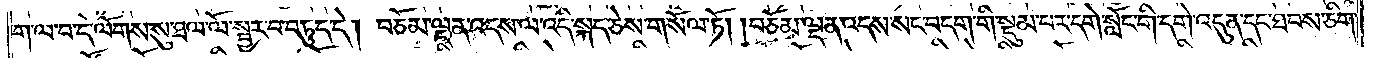ག་ལ་བ་དེ་ལོགས་སུ་ཐལ་ལོ་སྦྱར་བ་བཏུད་དེ། བཅོམ་ལྡན་འདས་ལ་འདི་སྐད་ཅེས་གསོལ་ཏོ། །བཅོམ་ལྡན་འདས་སང་བདག་གི་སྡུམ་པར་དགེ་སློང་གི་དགེ་འདུན་དང་ཐབས་ཅིག་
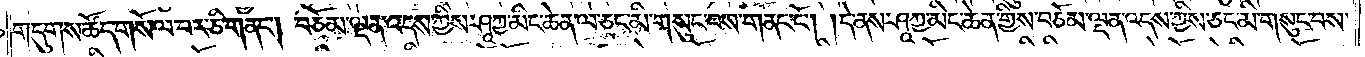གདུགས་ཚོད་གསོལ་བར་ཅི་གནང༌། བཅོམ་ལྡན་འདས་ཀྱིས་ཤཱཀྱ་མིང་ཆེན་ལ་ཅང་མི་གསུང་བས་གནང་ངོ༌། །དེ་ནས་ཤཱཀྱ་མིང་ཆེན་གྱིས་བཅོམ་ལྡན་འདས་ཀྱིས་ཅང་མི་གསུང་བས་
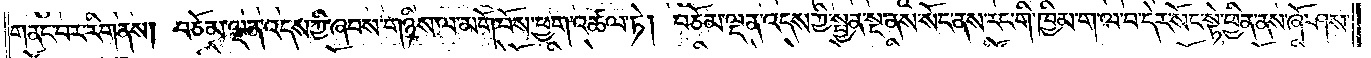གནང་བར་རིག་ནས། བཅོམ་ལྡན་འདས་ཀྱི་ཞབས་གཉིས་ལ་མགོ་བོས་ཕྱག་འཚལ་ཏེ། བཅོམ་ལྡན་འདས་ཀྱི་སྤྱན་སྔ་ནས་སོང་ནས་རང་གི་ཁྱིམ་ག་ལ་བ་དེར་སོང་སྟེ་ཕྱིན་ནས་ཞོ་ཤས་
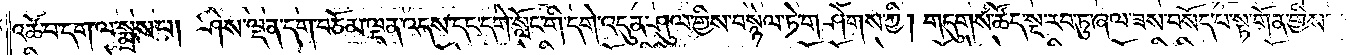འཚོ་བ་དག་ལ་སྨྲས་པ། ཤེས་ལྡན་དག་བཅོམ་ལྡན་འདས་དང་དགེ་སློང་གི་དགེ་འདུན་ཤུལ་གྱིས་བསྙེལ་ཏེ་གཤེགས་ཀྱི། གདུགས་ཚོད་སྔ་རབ་ཏུ་ཞལ་ཟས་བསོད་པ་སྟ་གོན་གྱིས་
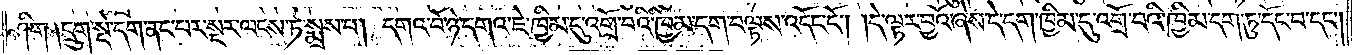ཤིག །དྲུག་སྡེ་དག་ནང་པར་སྔར་ལངས་ཏེ་སྨྲས་པ། དགའ་བོ་ཉེ་དགའ་ཇེ་ཁྱིམ་དུ་འགྲོ་བའི་ཁྱིམ་དག་བལྟས་འདོང་ངོ༌། །དེ་ལྟར་བྱའོ་ཞེས་དེ་དག་ཁྱིམ་དུ་འགྲོ་བའི་ཁྱིམ་དག་ཏུ་དོང་བ་དང༌།
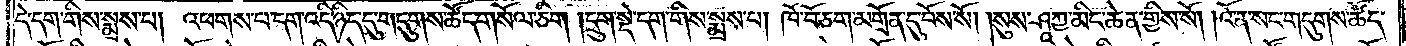དེ་དག་གིས་སྨྲས་པ། འཕགས་པ་དག་འདི་ཉིད་དུ་གདུགས་ཚོད་གསོལ་ཅིག །དྲུག་སྡེ་དག་གིས་སྨྲས་པ། ཁོ་བོ་ཅག་མགྲོན་དུ་བོས་སོ། །སུས་ཤཱཀྱ་མིང་ཆེན་གྱིས་སོ། །འོ་ན་སང་གདུགས་ཚོད་
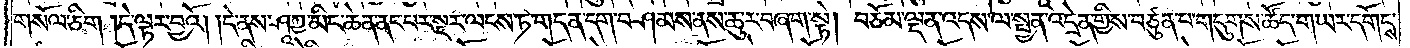གསོལ་ཅིག །དེ་ལྟར་བྱའོ། །དེ་ནས་ཤཱཀྱ་མིང་ཆེན་ནང་པར་སྔར་ལངས་ཏེ་གདན་དག་བཤམས་ནས་ཆུ་ར་བཞག་སྟེ། བཅོམ་ལྡན་འདས་ལ་སྤྱན་འདྲེན་གྱིས་བཙུན་པ་གདུགས་ཚོད་གཡར་དགོངས་
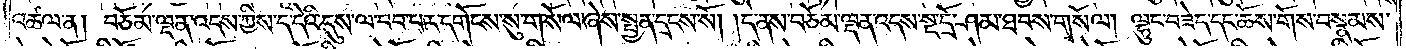འཚལ་ན། བཅོམ་ལྡན་འདས་ཀྱིས་ད་དེའི་དུས་ལ་བབ་པར་དགོངས་སུ་གསོལ་ཞེས་སྤྱན་དྲངས་སོ། །དེ་ནས་བཅོམ་ལྡན་འདས་སྔ་དྲོ་ཤམ་ཐབས་གསོལ། ལྷུང་བཟེད་དང་ཆོས་གོས་བསྣམས་
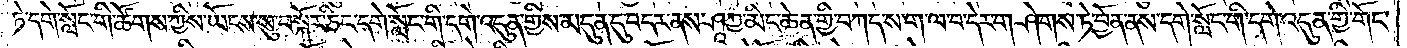ཏེ་དགེ་སློང་གི་ཚོགས་ཀྱིས་ཡོངས་སུ་བསྐོར་ཅིང་དགེ་སློང་གི་དགེ་འདུན་གྱིས་མདུན་དུ་བདར་ནས་ཤཱཀྱ་མིང་ཆེན་གྱི་བཀད་ས་ག་ལ་བ་དེར་གཤེགས་ཏེ་བྱོན་ནས་དགེ་སློང་གི་དགེ་འདུན་གྱི་གོང་
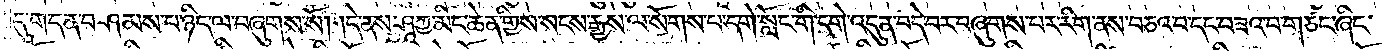དུ་གདན་བཤམས་པ་ཉིད་ལ་བཞུགས་སོ། །དེ་ནས་ཤཱཀྱ་མིང་ཆེན་གྱིས་སངས་རྒྱས་ལ་སོགས་པ་དགེ་སློང་གི་དགེ་འདུན་བདེ་བར་བཞུགས་པར་རིག་ནས་བཅའ་བ་དང་བཟའ་བ་གཙང་ཞིང་
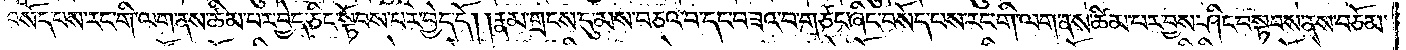བསོད་པས་རང་གི་ལག་ནས་ཚིམ་པར་བྱེད་ཅིང་སྟོབས་པར་བྱེད་དོ། །རྣམ་གྲངས་དུ་མས་བཅའ་བ་དང་བཟའ་བ་གཙང་ཞིང་བསོད་པས་རང་གི་ལག་ནས་ཚིམ་པར་བྱས་ཤིང་བསྟབས་ནས་བཅོམ་
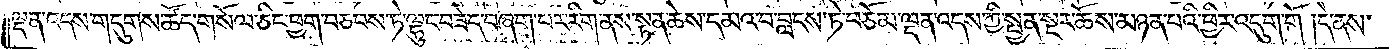ལྡན་འདས་གདུགས་ཚོད་གསོལ་ཅིང་ཕྱག་བཅབས་ཏེ་ལྷུང་བཟེད་བཞག་པར་རིག་ནས་སྟན་ཆེས་དམའ་བ་བླངས་ཏེ་བཅོམ་ལྡན་འདས་ཀྱི་སྤྱན་སྔར་ཆོས་མཉན་པའི་ཕྱིར་འདུག་གོ །དེ་ནས་
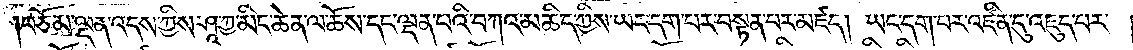བཅོམ་ལྡན་འདས་ཀྱིས་ཤཱཀྱ་མིང་ཆེན་ལ་ཆོས་དང་ལྡན་པའི་བཀའ་མཆིད་ཀྱིས་ཡང་དག་པར་བསྟན་པར་མཛད། ཡང་དག་པར་འཛིན་དུ་འཇུད་པར་
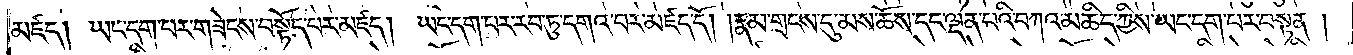མཛད། ཡང་དག་པར་གཟེངས་བསྟོད་པར་མཛད། ཡང་དག་པར་རབ་ཏུ་དགའ་བར་མཛད་དོ། །རྣམ་གྲངས་དུ་མས་ཆོས་དང་ལྡན་པའི་བཀའ་མཆིད་ཀྱིས་ཡང་དག་པར་བསྟན།
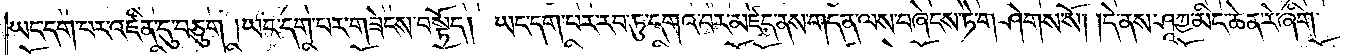ཡང་དག་པར་འཛིན་དུ་བཅུག །ཡང་དག་པར་གཟེངས་བསྟོད། ཡང་དག་པར་རབ་ཏུ་དགའ་བར་མཛད་ནས་གདན་ལས་བཞེངས་ཏེ་གཤེགས་སོ། །དེ་ནས་ཤཱཀྱ་མིང་ཆེན་རེ་ཞིག་
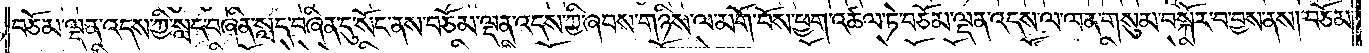བཅོམ་ལྡན་འདས་ཀྱི་སླད་བཞིན་སླད་བཞིན་དུ་སོང་ནས་བཅོམ་ལྡན་འདས་ཀྱི་ཞབས་གཉིས་ལ་མགོ་བོས་ཕྱག་འཚལ་ཏེ་བཅོམ་ལྡན་འདས་ལ་ལན་གསུམ་བསྐོར་བ་བྱས་ནས།བཅོམ་
